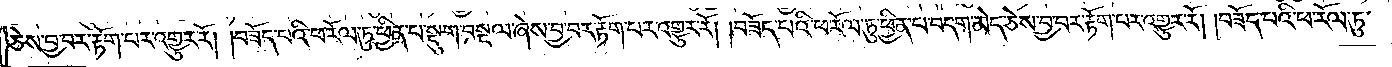ཅེས་བྱ་བར་རྟོག་པར་འགྱུར་རོ། །བཟོད་པའི་ཕ་རོལ་ཏུ་ཕྱིན་པ་སྡུག་བསྔལ་ཞེས་བྱ་བར་རྟོག་པར་འགྱུར་རོ། །བཟོད་པའི་ཕ་རོལ་ཏུ་ཕྱིན་པ་བདག་མེད་ཅེས་བྱ་བར་རྟོག་པར་འགྱུར་རོ། །བཟོད་པའི་ཕ་རོལ་ཏུ་
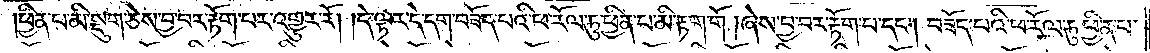ཕྱིན་པ་མི་སྡུག་ཅེས་བྱ་བར་རྟོག་པར་འགྱུར་རོ། །དེ་ལྟར་དེ་དག་བཟོད་པའི་ཕ་རོལ་ཏུ་ཕྱིན་པ་མི་རྟག་གོ། ཞེས་བྱ་བར་རྟོག་པ་དང༌། བཟོད་པའི་ཕ་རོལ་ཏུ་ཕྱིན་པ་
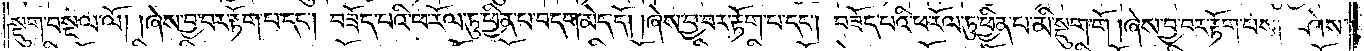སྡུག་བསྔལ་ལོ། །ཞེས་བྱ་བར་རྟོག་པ་དང༌། བཟོད་པའི་ཕ་རོལ་ཏུ་ཕྱིན་པ་བདག་མེད་དོ། །ཞེས་བྱ་བར་རྟོག་པ་དང༌། བཟོད་པའི་ཕ་རོལ་ཏུ་ཕྱིན་པ་མི་སྡུག་གོ། ཞེས་བྱ་བར་རྟོག་པས། ཤེས་
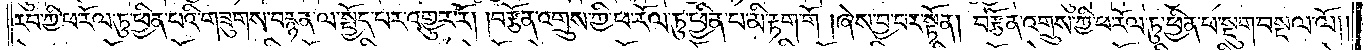རབ་ཀྱི་ཕ་རོལ་ཏུ་ཕྱིན་པའི་གཟུགས་བརྙན་ལ་སྤྱོད་པར་འགྱུར་རོ། །བརྩོན་འགྲུས་ཀྱི་ཕ་རོལ་ཏུ་ཕྱིན་པ་མི་རྟག་གོ། ཞེས་བྱ་བར་སྟོན། བརྩོན་འགྲུས་ཀྱི་ཕ་རོལ་ཏུ་ཕྱིན་པ་སྡུག་བསྔལ་ལོ༎
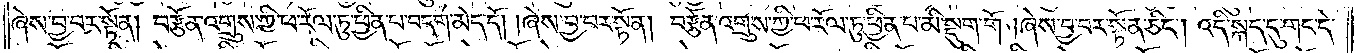ཞེས་བྱ་བར་སྟོན། བརྩོན་འགྲུས་ཀྱི་ཕ་རོལ་ཏུ་ཕྱིན་པ་བདག་མེད་དོ། །ཞེས་བྱ་བར་སྟོན། བརྩོན་འགྲུས་ཀྱི་ཕ་རོལ་ཏུ་ཕྱིན་པ་མི་སྡུག་གོ། ཞེས་བྱ་བར་སྟོན་ཅིང༌། འདི་སྐད་དུ་གང་དེ་
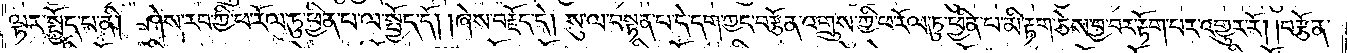ལྟར་སྤྱོད་པ་ནི། ཤེས་རབ་ཀྱི་ཕ་རོལ་ཏུ་ཕྱིན་པ་ལ་སྤྱོད་དོ། །ཞེས་བརྗོད་དེ། སུ་ལ་བསྟན་པ་དེ་དག་ཀྱང་བརྩོན་འགྲུས་ཀྱི་ཕ་རོལ་ཏུ་ཕྱིན་པ་མི་རྟག་ཅེས་བྱ་བར་རྟོག་པར་འགྱུར་རོ། །བརྩོན་
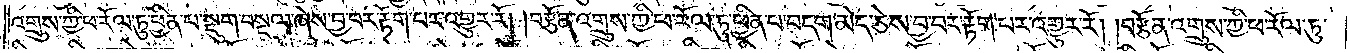འགྲུས་ཀྱི་ཕ་རོལ་ཏུ་ཕྱིན་པ་སྡུག་བསྔལ་ཞེས་བྱ་བར་རྟོག་པར་འགྱུར་རོ། །བརྩོན་འགྲུས་ཀྱི་ཕ་རོལ་ཏུ་ཕྱིན་པ་བདག་མེད་ཅེས་བྱ་བར་རྟོག་པར་འགྱུར་རོ། །བརྩོན་འགྲུས་ཀྱི་ཕ་རོལ་ཏུ་
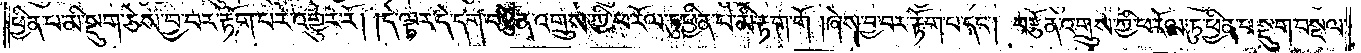ཕྱིན་པ་མི་སྡུག་ཅེས་བྱ་བར་རྟོག་པར་འགྱུར་རོ། །དེ་ལྟར་དེ་དག་བརྩོན་འགྲུས་ཀྱི་ཕ་རོལ་ཏུ་ཕྱིན་པ་མི་རྟག་གོ། ཞེས་བྱ་བར་རྟོག་པ་དང༌། བརྩོན་འགྲུས་ཀྱི་ཕ་རོལ་ཏུ་ཕྱིན་པ་སྡུག་བསྔལ་
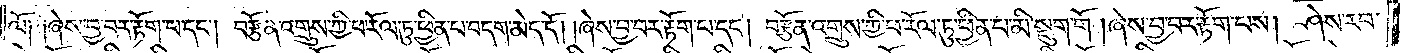ལོ༑ ༑ཞེས་བྱ་བར་རྟོག་པ་དང༌། བརྩོན་འགྲུས་ཀྱི་ཕ་རོལ་ཏུ་ཕྱིན་པ་བདག་མེད་དོ། །ཞེས་བྱ་བར་རྟོག་པ་དང༌། བརྩོན་འགྲུས་ཀྱི་ཕ་རོལ་ཏུ་ཕྱིན་པ་མི་སྡུག་གོ། །ཞེས་བྱ་བར་རྟོག་པས། ཤེས་རབ་
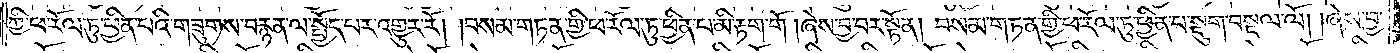ཀྱི་ཕ་རོལ་ཏུ་ཕྱིན་པའི་གཟུགས་བརྙན་ལ་སྤྱོད་པར་འགྱུར་རོ། །བསམ་གཏན་གྱི་ཕ་རོལ་ཏུ་ཕྱིན་པ་མི་རྟག་གོ། ཞེས་བྱ་བར་སྟོན། བསམ་གཏན་གྱི་ཕ་རོལ་ཏུ་ཕྱིན་པ་སྡུག་བསྔལ་ལོ། །ཞེས་བྱ་
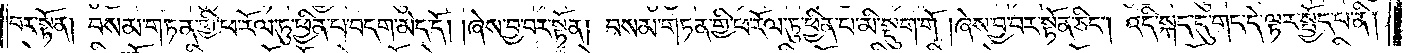བར་སྟོན། བསམ་གཏན་གྱི་ཕ་རོལ་ཏུ་ཕྱིན་པ་བདག་མེད་དོ། །ཞེས་བྱ་བར་སྟོན། བསམ་གཏན་གྱི་ཕ་རོལ་ཏུ་ཕྱིན་པ་མི་སྡུག་གོ། ཞེས་བྱ་བར་སྟོན་ཅིང༌། འདི་སྐད་དུ་གང་དེ་ལྟར་སྤྱོད་པ་ནི།
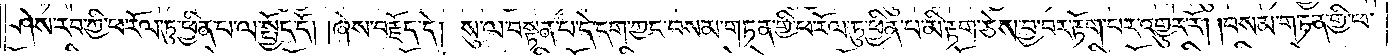ཤེས་རབ་ཀྱི་ཕ་རོལ་ཏུ་ཕྱིན་པ་ལ་སྤྱོད་དོ། །ཞེས་བརྗོད་དེ། སུ་ལ་བསྟན་པ་དེ་དག་ཀྱང་བསམ་གཏན་གྱི་ཕ་རོལ་ཏུ་ཕྱིན་པ་མི་རྟག་ཅེས་བྱ་བར་རྟོག་པར་འགྱུར་རོ། །བསམ་གཏན་གྱི་ཕ་
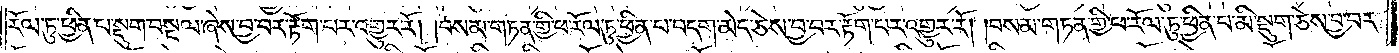རོལ་ཏུ་ཕྱིན་པ་སྡུག་བསྔལ་ཞེས་བྱ་བར་རྟོག་པར་འགྱུར་རོ། །བསམ་གཏན་གྱི་ཕ་རོལ་ཏུ་ཕྱིན་པ་བདག་མེད་ཅེས་བྱ་བར་རྟོག་པར་འགྱུར་རོ། །བསམ་གཏན་གྱི་ཕ་རོལ་ཏུ་ཕྱིན་པ་མི་སྡུག་ཅེས་བྱ་བར་
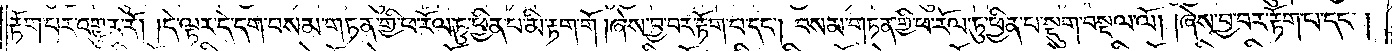རྟོག་པར་འགྱུར་རོ། །དེ་ལྟར་དེ་དག་བསམ་གཏན་གྱི་ཕ་རོལ་ཏུ་ཕྱིན་པ་མི་རྟག་གོ། ཞེས་བྱ་བར་རྟོག་པ་དང༌། བསམ་གཏན་གྱི་ཕ་རོལ་ཏུ་ཕྱིན་པ་སྡུག་བསྔལ་ལོ། །ཞེས་བྱ་བར་རྟོག་པ་དང༌།
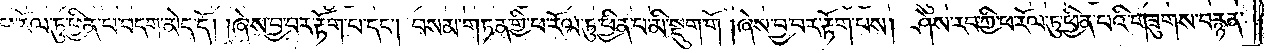ཕ་རོལ་ཏུ་ཕྱིན་པ་བདག་མེད་དོ། །ཞེས་བྱ་བར་རྟོག་པ་དང༌། བསམ་གཏན་གྱི་ཕ་རོལ་ཏུ་ཕྱིན་པ་མི་སྡུག་གོ། ཞེས་བྱ་བར་རྟོག་པས། ཤེས་རབ་ཀྱི་ཕ་རོལ་ཏུ་ཕྱིན་པའི་གཟུགས་བརྙན་
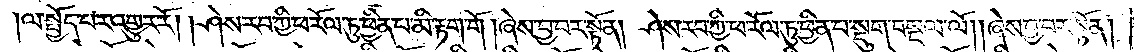ལ་སྤྱོད་པར་འགྱུར་རོ། །ཤེས་རབ་ཀྱི་ཕ་རོལ་ཏུ་ཕྱིན་པ་མི་རྟག་གོ། ཞེས་བྱ་བར་སྟོན། ཤེས་རབ་ཀྱི་ཕ་རོལ་ཏུ་ཕྱིན་པ་སྡུག་བསྔལ་ལོ། །ཞེས་བྱ་བར་སྟོན།
